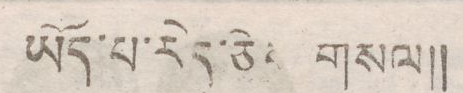ཡོད་པ་རེད་ཅེས་གསལ།།
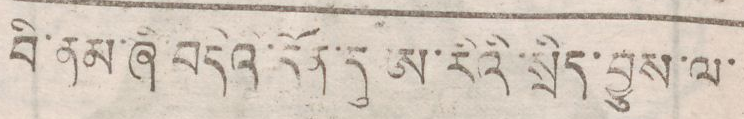བི་ནམ་ཞི་བདེའི་དོན་དུ་ཨ་རིའི་སྲིད་བྱུས་ལ་
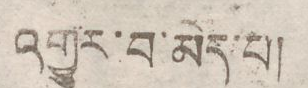འགྱུར་བ་མེད་པ།
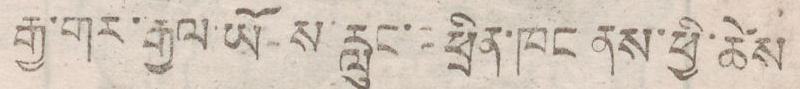རྒྱ་གར་རྒྱལ་ཡོངས་རླུང་འཕྲིན་ཁང་ནས་ཕྱི་ཚེས
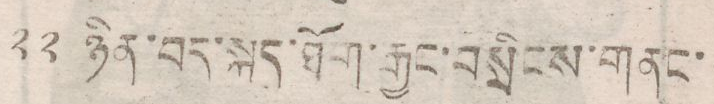༢༢ ཉིན་བོད་སྐད་ཐོག་རྒྱང་བསྲིངས་གནང་
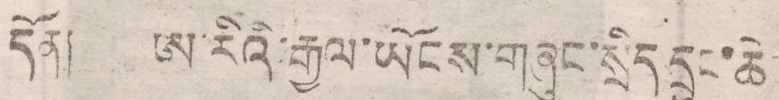དོན། ཨ་རིའི་རྒྱལ་ཡོངས་གཞུང་སྲིད དྲུང་ཆེ
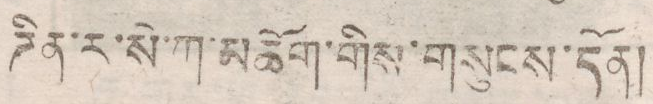ཌིན་ར་སེ་ཀ་མཆོག་གིས་གསུངས་དོན།
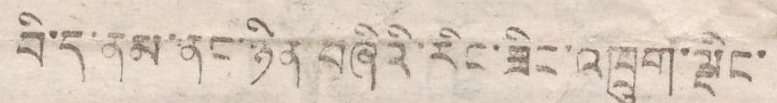བི་ད་ནམ་ནང་ཉིད་བཞིའི་རིང་ཟིང་འཁྲུག་ལྡིང་
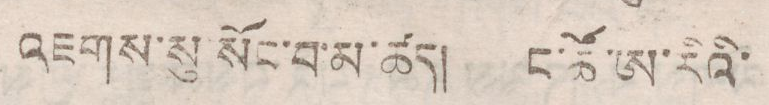འཇགས་སུ་སོང་བ་མ་ཚད། ང་ཚོ་ཨ་རིའི་
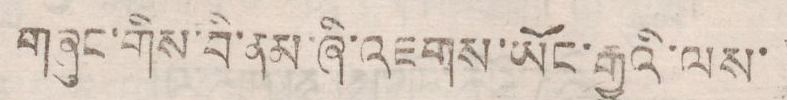གཞུང་གིས་བི་ནམ་ཞི་འཇིགས་ཡོང་རྒྱུའི་ལས་
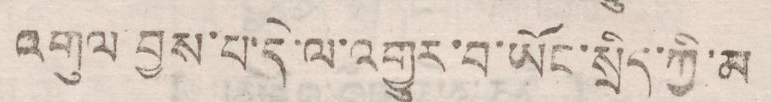འགུལ བྱས་པ་དེ་ལ་འགྱུར་བ་ཡོང་སྲིད་ཀྱི་མ
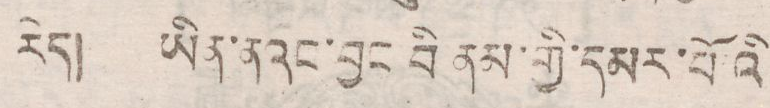རེད། ཡིན་ནའང་བྱང བི ནམ་གྱི་དམར་པོའི
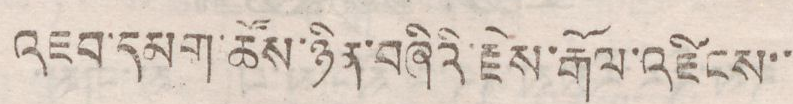འཇག་དམག་ཚོས་ཉིན་བཞིའི་རྗེས་རྒོལ་འཛིངས་་
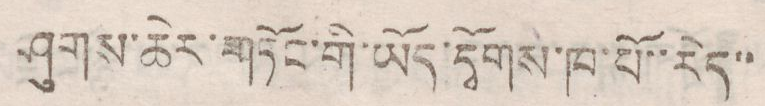ཤུགས་ཆེར་གཏོང་གི་ཡོད་དྭོགས་ཁ་པོ་་རེད་་
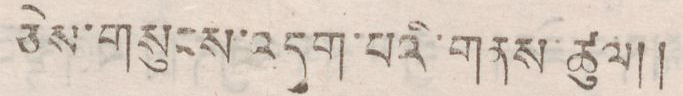ཅེས་གསུངས་འདུག་པའི་གནས་ཚུལ།།
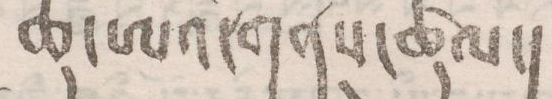ཆུ་ཨའི་གནས་ཚུལ།
